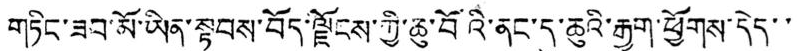གཏིང་ཟབ་མོ་ཡིན་སྟབས་བོད་ལྗོངས་ཀྱི་ཆུ་བོའི་ནང་དུ་ཆུའི་རྒྱུག་ཕྱོགས་དེད་་
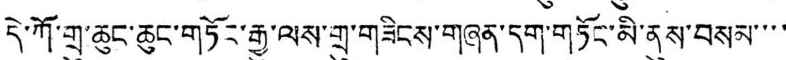དེ་ཀོ་གྲུ་ཆུང་ཆུང་གཏོང་རྒྱུ་ལས་གྲུ་གཟིངས་གཞན་དག་གཏོང་མི་ནུས་བསམ་་་་
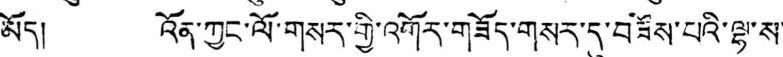མོད། འོན་ཀྱང་ལོ་གསར་གྱི་འགོར་གཟོད་གསར་དུ་བཟོས་པའི་ལྷ་ས་
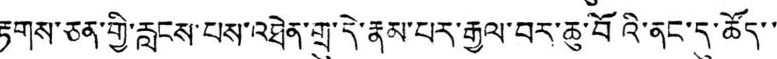རྟགས་ཅན་གྱི་རླངས་པས་འཐེན་གྲུ་དེ་རྣམ་པར་རྒྱལ་བར་ཆུ་བོའི་ནང་དུ་ཚོད་་
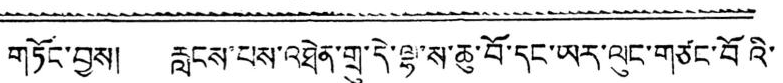གཏོང་བྱས། རླངས་པས་འཐེན་གྲུ་དེ་ལྷ་ས་ཆུ་བོ་དང་ཡར་ལུང་གཙང་བོའི་
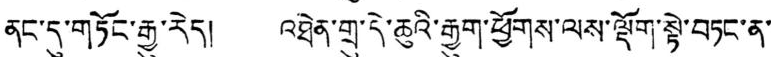ནང་དུ་གཏོང་རྒྱུ་རེད། འཐེན་གྲུ་དེ་ཆུའི་རྒྱུག་ཕྱོགས་ལས་ལྡོག་སྟེ་བཏང་ན་
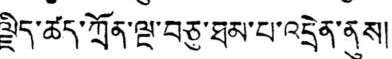ལྗིད་ཚད་ཀྲོན་ལྔ་བཅུ་ཐམ་པ་འདྲེན་ནུས།
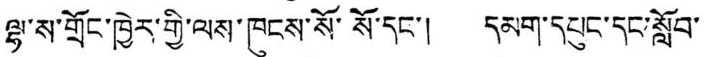ལྷ་ས་གྲོང་ཁྱེར་གྱི་ལས་ཁུངས་སོ་སོ་དང་། དམག་དཔུང་དང་སློབ་
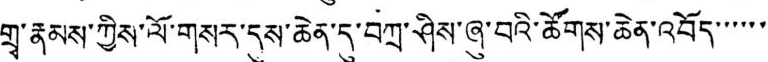གྲྭ་རྣམས་ཀྱིས་ལོ་གསར་དུས་ཆེན་དུ་བཀྲ་ཤིས་ཞུ་བའི་ཚོགས་ཆེན་འབོད་་་་་་
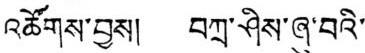འཚོགས་བྱས། བཀྲ་ཤིས་ཞུ་བའི་
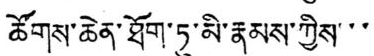ཚོགས་ཆེན་ཐོག་ཏུ་མི་རྣམས་ཀྱིས་་་
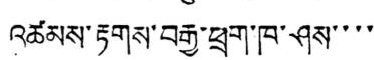འཚོམས་རྟགས་བརྒྱ་ཕྲག་ཁ་ཤས་་་་
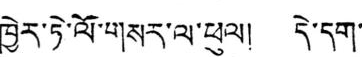ཁྱེར་ཏེ་ལོ་གསར་ལ་ཕུལ། དེ་དག་
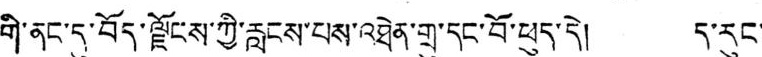གི་ནང་དུ་བོད་ལྗོངས་ཀྱི་རླངས་པས་འཐེན་གྲུ་དང་བོ་ཕུད་དེ། ད་རུང་
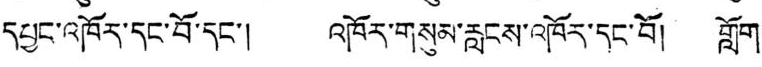དཔྱང་འཁོར་དང་བོ་དང་། འཁོར་གསུམ་རླངས་འཁོར་དང་བོ། གློག་
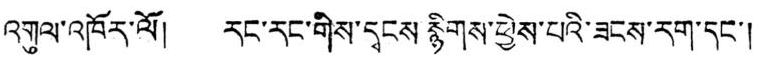འགུལ་འཁོར་ལོ། རང་རང་གིས་དྭངས སྙིགས་ཕྱེས་པའི་ཟངས་རག་དང་།
